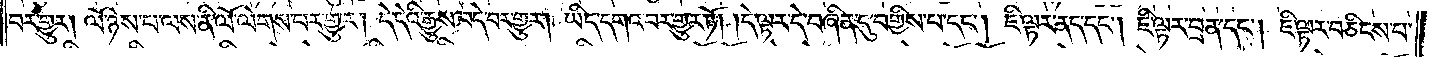བར་གྱུར། ལོ་ཉེས་པ་ལས་ནི་ལོ་ལེགས་པར་གྱུར། དེ་དེའི་རྒྱུས་བདེ་བར་གྱུར། ཡིད་དགའ་བར་གྱུར་ཏོ། །དེ་ལྟར་དེ་བཞིན་དུ་བགྱིས་པ་དང༌། ཇི་ལྟར་ནད་དང༌། ཇི་ལྟར་བྲན་དང༌། ཇི་ལྟར་བཅིངས་པ་
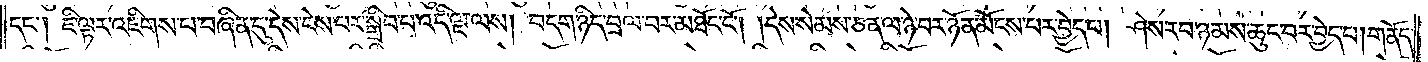དང༌། ཇི་ལྟར་འཇིགས་པ་བཞིན་དུ་དེས་ངེས་པར་སྒྲིབ་པ་འདི་ལྔ་ལས། བདག་ཉིད་བྲལ་བར་མཐོང་ངོ༌། །དེས་སེམས་ཅན་ལ་ཉེ་བར་ཉོན་མོངས་པར་བྱེད་པ། ཤེས་རབ་ཉམས་ཆུང་བར་བྱེད་པ། གནོད་
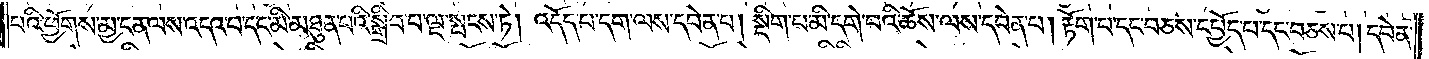པའི་ཕྱོགས་མྱ་ངན་ལས་འདའ་བ་དང་མི་མཐུན་པའི་སྒྲིབ་པ་ལྔ་སྤངས་ཏེ། འདོད་པ་དག་ལས་དབེན་པ། སྡིག་པ་མི་དགེ་བའི་ཆོས་ལས་དབེན་པ། རྟོག་པ་དང་བཅས་དཔྱོད་པ་དང་བཅས་པ། དབེན་
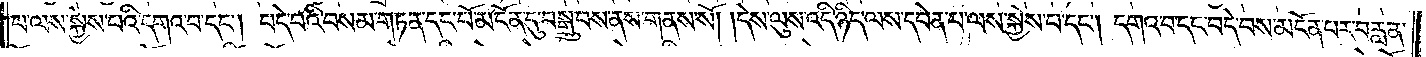པ་ལས་སྐྱེས་པའི་དགའ་བ་དང༌། བདེ་བའི་བསམ་གཏན་དང་པོ་མངོན་དུ་བསྒྲུབས་ནས་གནས་སོ། །དེས་ལུས་འདི་ཉིད་ལས་དབེན་པ་ལས་སྐྱེས་པ་དང༌། དགའ་བ་དང་བདེ་བས་མངོན་པར་བརླན་
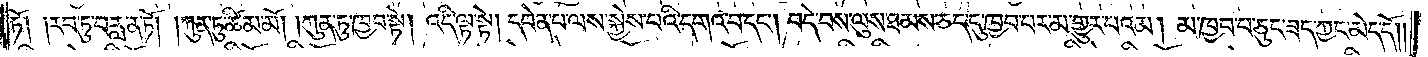ཏོ། །རབ་ཏུ་བརླན་ཏོ། །ཀུན་ཏུ་ཚིམ་མོ། །ཀུན་ཏུ་ཁྱབ་སྟེ། འདི་ལྟ་སྟེ། དབེན་པ་ལས་སྐྱེས་པའི་དགའ་བ་དང༌། བདེ་བས་ལུས་ཐམས་ཅད་དུ་ཁྱབ་པར་མ་གྱུར་པའམ། མ་ཁྱབ་པ་ཅུང་ཟད་ཀྱང་མེད་དོ། །
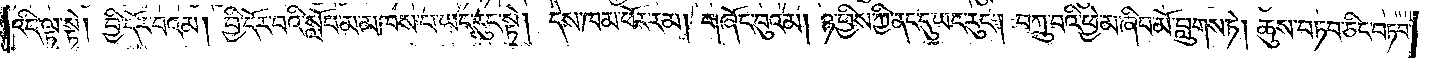འདི་ལྟ་སྟེ། བྱི་དོར་བའམ། བྱི་དོར་བའི་སློབ་མ་མཁས་པ་ཡང་རུང་སྟེ། དེས་ཁམ་ཕོར་རམ། གཞོང་བུའམ། ཉ་ཕྱིས་ཀྱི་ནང་དུ་ཡང་རུང༌། བཀྲུ་བའི་ཕྱེ་མ་ཞིབ་མོ་བླུགས་ཏེ། ཆུས་བཏབ་ཅིང་བཏབ་
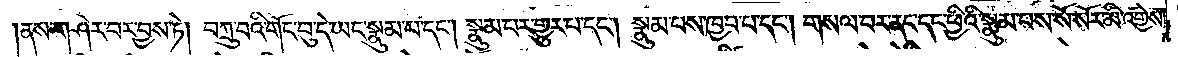ནས་གཤེར་བར་བྱས་ཏེ། བཀྲུ་བའི་གོང་བུ་དེ་ཡང་སྣུམ་པ་དང༌། སྣུམ་པར་གྱུར་པ་དང༌། སྣུམ་པས་ཁྱབ་པ་དང༌། གསལ་བར་ནང་དང་ཕྱིའི་སྣུམ་པས་སོ་སོར་མི་འགྱེས་
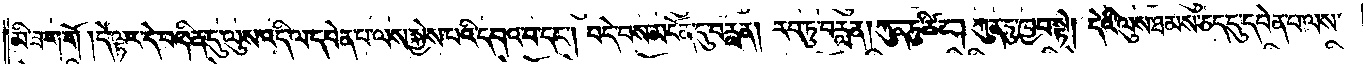མི་ཟག་གོ །དེ་ལྟར་དེ་བཞིན་དུ་ལུས་འདི་ལ་དབེན་པ་ལས་སྐྱེས་པའི་དགའ་བ་དང༌། བདེ་བས་མངོན་དུ་བརླན། རབ་ཏུ་བརླན། ཀུན་ཏུ་ཚིམ། ཀུན་ཏུ་ཁྱབ་སྟེ། དེའི་ལུས་ཐམས་ཅད་དུ་དབེན་པ་ལས་
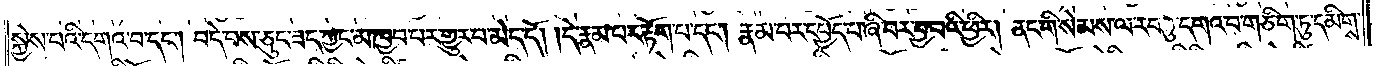སྐྱེས་པའི་དགའ་བ་དང༌། བདེ་བས་ཅུང་ཟད་ཀྱང་མ་ཁྱབ་པར་གྱུར་པ་མེད་དོ། །དེ་རྣམ་པར་རྟོག་པ་དང༌། རྣམ་པར་དཔྱོད་པ་ཞི་བར་བྱ་བའི་ཕྱིར། ནང་གི་སེམས་ལ་རབ་ཏུ་དགའ་བ་གཅིག་ཏུ་དམིགས་
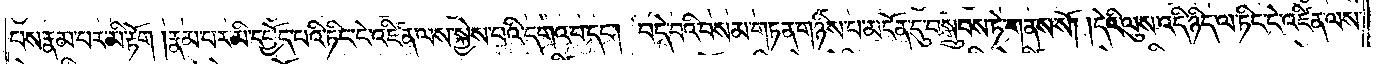པས་རྣམ་པར་མི་རྟོག །རྣམ་པར་མི་དཔྱོད་པའི་ཏིང་ངེ་འཛིན་ལས་སྐྱེས་པའི་དགའ་བ་དང༌། བདེ་བའི་བསམ་གཏན་གཉིས་པ་མངོན་དུ་བསྒྲུབས་ཏེ་གནས་སོ། །དེའི་ལུས་འདི་ཉིད་ལ་ཏིང་ངེ་འཛིན་ལས་
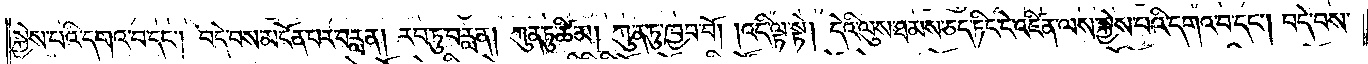སྐྱེས་པའི་དགའ་བ་དང༌། བདེ་བས་མངོན་པར་བརླན། རབ་ཏུ་བརླན། ཀུན་ཏུ་ཚིམ། ཀུན་ཏུ་ཁྱབ་བོ། །འདི་ལྟ་སྟེ། དེའི་ལུས་ཐམས་ཅད་ཏིང་ངེ་འཛིན་ལས་སྐྱེས་པའི་དགའ་བ་དང༌། བདེ་བས་
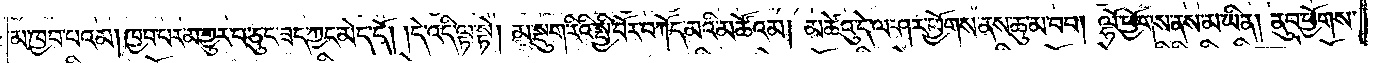མ་ཁྱབ་པའམ། ཁྱབ་པར་མ་གྱུར་བ་ཅུང་ཟད་ཀྱང་མེད་དོ། །དེ་འདི་ལྟ་སྟེ། མ་སྡུག་རིའི་སྤྱི་བོར་བཀོད་མའི་མཚོའམ། མཚེའུ་དེ་ལ་ཤར་ཕྱོགས་ནས་ཆུ་མ་བབ། ལྷོ་ཕྱོགས་ནས་མ་ཡིན། ནུབ་ཕྱོགས་
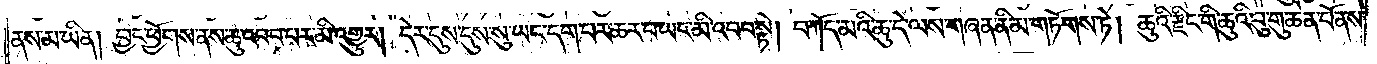ནས་མ་ཡིན། བྱང་ཕྱོགས་ནས་ཆུ་འབབ་པར་མི་འགྱུར། དེར་དུས་དུས་སུ་ཡང་དག་པར་ཆར་པ་ཡང་མི་འབབ་སྟེ། བཀོད་མའི་ཆུ་དེ་ལས་གཞན་ནི་མ་གཏོགས་ཏེ། ཆུའི་རྫིང་གི་ཆུའི་བུ་གུ་ཆེན་པོ་ནས་
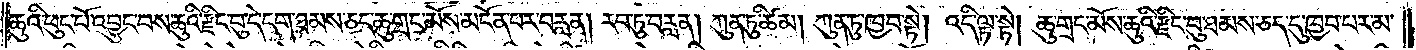ཆུའི་ཕུང་པོ་འབྱུང་བས་ཆུའི་རྫིང་བུ་དེ་དག་ཐམས་ཅད་ཆུ་གྲང་མོས་མངོན་པར་བརླན། རབ་ཏུ་བརླན། ཀུན་ཏུ་ཚིམ། ཀུན་ཏུ་ཁྱབ་སྟེ། འདི་ལྟ་སྟེ། ཆུ་གྲང་མོས་ཆུའི་རྫིང་བུ་ཐམས་ཅད་དུ་ཁྱབ་པར་མ་
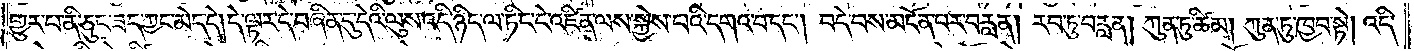གྱུར་པ་ནི་ཅུང་ཟད་ཀྱང་མེད་དེ། དེ་ལྟར་དེ་བཞིན་དུ་དེའི་ལུས་འདི་ཉིད་ལ་ཏིང་ངེ་འཛིན་ལས་སྐྱེས་པའི་དགའ་བ་དང༌། བདེ་བས་མངོན་པར་བརླན། རབ་ཏུ་བརླན། ཀུན་ཏུ་ཚིམ། ཀུན་ཏུ་ཁྱབ་སྟེ། འདི་
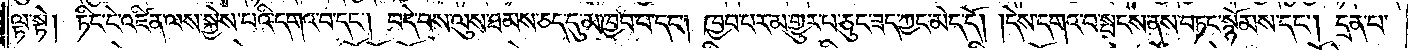ལྟ་སྟེ། ཏིང་ངེ་འཛིན་ལས་སྐྱེས་པའི་དགའ་བ་དང༌། བདེ་བས་ལུས་ཐམས་ཅད་དུ་མ་ཁྱབ་པ་དང༌། ཁྱབ་པར་མ་གྱུར་པ་ཅུང་ཟད་ཀྱང་མེད་དོ། །དེས་དགའ་བ་སྤངས་ནས་བཏང་སྙོམས་དང༌། དྲན་པ་
